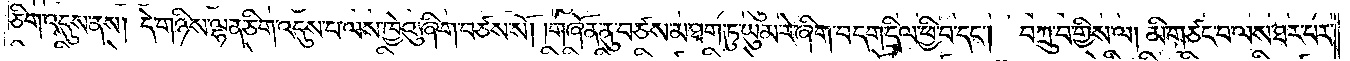ཅིག་འདུས་ནས། དེ་གཉིས་ལྷན་ཅིག་འདུས་པ་ལས་ཁྱེའུ་ཞིག་བཙས་སོ། །གཞོན་ནུ་བཙས་མ་ཐག་ཏུ་ཡུམ་རེ་ཞིག་བདག་དྲིལ་ཕྱི་བ་དང༌། བཀྲུ་བ་གྱིས་ལ། མི་གཙང་བ་ལས་ཐར་པར་
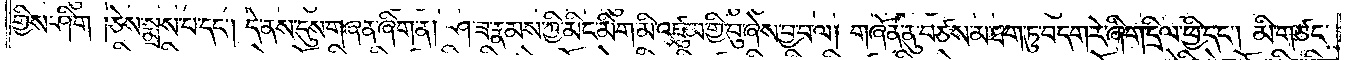གྱིས་ཤིག །ཅེས་སྨྲས་པ་དང༌། དེ་ནས་དུས་གཞན་ཞིག་ན། ཤ་ཟ་རྣམས་ཀྱི་མིང་མིག་མི་འཛུམ་གྱི་བུ་ཞེས་བྱ་བ་ལ། གཞོན་ནུ་བཙས་མ་ཐག་ཏུ་བདག་རེ་ཞིག་དྲིལ་ཕྱི་དང༌། མི་གཙང་
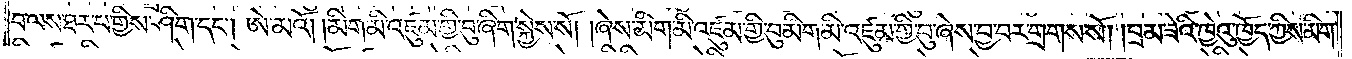བ་ལས་ཐར་པ་གྱིས་ཤིག་དང༌། ཨེ་མའོ། །མིག་མི་འཛུམ་གྱི་བུ་ཞིག་སྐྱེས་སོ། །ཞེས་མིག་མི་འཛུམ་གྱི་བུ་མིག་མི་འཛུམ་གྱི་བུ་ཞེས་བྱ་བར་གྲགས་སོ། །བྲམ་ཟེའི་ཁྱེའུ་ཁྱོད་ཀྱིས་མིག་
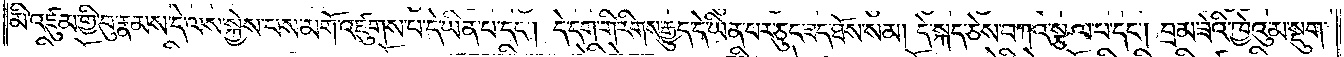མི་འཛུམ་གྱི་བུ་རྣམས་དེ་ལས་སྐྱེས་པས་མགོ་འཛུགས་པ་དེ་ཡིན་པ་དང༌། དེ་དག་གི་རིགས་རྒྱུད་དེ་ཡིན་པར་ཅུང་ཟད་ཐོས་སམ། དེ་སྐད་ཅེས་བཀའ་སྩལ་པ་དང༌། བྲམ་ཟེའི་ཁྱེའུ་མ་སྡུག་
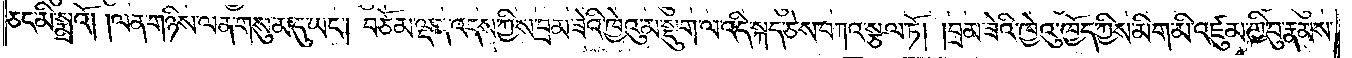ཅང་མི་སྨྲའོ། །ལན་གཉིས་ལན་གསུམ་དུ་ཡང༌། བཅོམ་ལྡན་འདས་ཀྱིས་བྲམ་ཟེའི་ཁྱེའུ་མ་སྡུག་ལ་འདི་སྐད་ཅེས་བཀའ་སྩལ་ཏོ། །བྲམ་ཟེའི་ཁྱེའུ་ཁྱོད་ཀྱིས་མིག་མི་འཛུམ་གྱི་བུ་རྣམས་
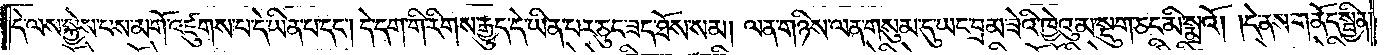དེ་ལས་སྐྱེས་པས་མགོ་འཛུགས་པ་དེ་ཡིན་པ་དང༌། དེ་དག་གི་རིགས་རྒྱུད་དེ་ཡིན་པར་ཅུང་ཟད་ཐོས་སམ། ལན་གཉིས་ལན་གསུམ་དུ་ཡང་བྲམ་ཟེའི་ཁྱེའུ་མ་སྡུག་ཅང་མི་སྨྲའོ། །དེ་ནས་གནོད་སྦྱིན་
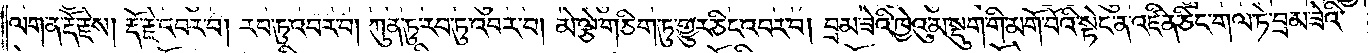ལག་ན་རྡོ་རྗེས། རྡོ་རྗེ་འབར་བ། རབ་ཏུ་འབར་བ། ཀུན་ཏུ་རབ་ཏུ་འབར་བ། མེ་ལྕེ་གཅིག་ཏུ་གྱུར་ཅིང་འབར་བ། བྲམ་ཟེའི་ཁྱེའུ་མ་སྡུག་གི་མགོ་བོའི་སྟེང་ན་འཛིན་ཅིང་གལ་ཏེ་བྲམ་ཟེའི་
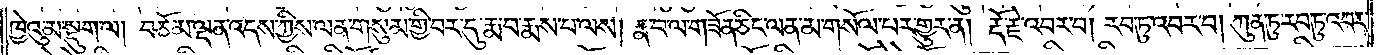ཁྱེའུ་མ་སྡུག་ལ། བཅོམ་ལྡན་འདས་ཀྱིས་ལན་གསུམ་གྱི་བར་དུ་རྨ་བ་སྨྲས་པ་ལས། རྣ་བ་ལ་གཟོན་ཅིང་ལན་མ་གསོལ་པར་གྱུར་ན། རྡོ་རྗེ་འབར་བ། རབ་ཏུ་འབར་བ། ཀུན་ཏུ་རབ་ཏུ་འབར་
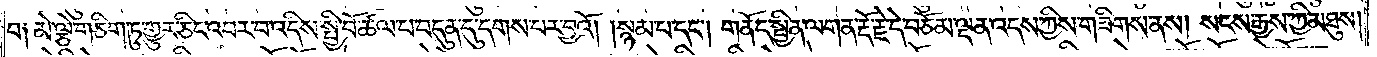བ༑ མེ་ལྕེ་གཅིག་ཏུ་གྱུར་ཅིང་འབར་བ་འདིས་སྤྱི་བོ་ཚལ་པ་བདུན་དུ་དགས་པར་བྱའོ། །སྙམ་པ་དང༌། གནོད་སྦྱིན་ལག་ན་རྡོ་རྗེ་དེ་བཅོམ་ལྡན་འདས་ཀྱིས་གཟིགས་ནས། སངས་རྒྱས་ཀྱི་མཐུས།
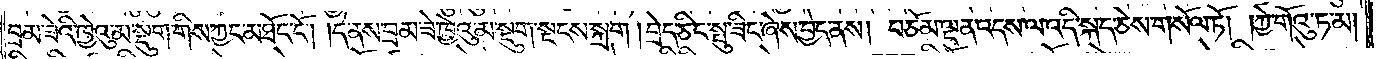བྲམ་ཟེའི་ཁྱེའུ་མ་སྡུག་གིས་ཀྱང་མཐོང་ངོ༌། །དེ་ནས་བྲམ་ཟེ་ཁྱེའུ་མ་སྡུག་སྔགས་སྐྲག །བྲེད་ཅིང་སྤུ་ཟིང་ཞེས་བྱེད་ནས། བཅོམ་ལྡན་འདས་ལ་འདི་སྐད་ཅེས་གསོལ་ཏོ། །ཀྱེ་གོའུ་ཏ་མ།
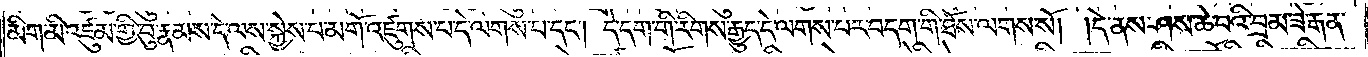མིག་མི་འཛུམ་གྱི་བུ་རྣམས་དེ་ལས་སྐྱེས་པ་མགོ་འཛུགས་པ་དེ་ལགས་པ་དང༌། དེ་དག་གི་རིགས་རྒྱུད་དེ་ལགས་པར་བདག་གི་ཐོས་ལགས་སོ། །དེ་ནས་ཤས་ཆེ་བའི་བྲམ་ཟེ་རྒན་
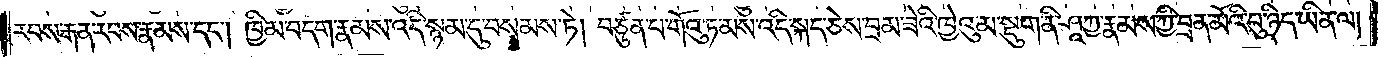རབས་རྒན་རབས་རྣམས་དང༌། ཁྱིམ་བདག་རྣམས་འདི་སྙམ་དུ་བསམས་ཏེ། བཙུན་པ་གོའུ་ཏ་མས་འདི་སྐད་ཅེས་བྲམ་ཟེའི་ཁྱེའུ་མ་སྡུག་ནི་ཤཱཀྱ་རྣམས་ཀྱི་བྲན་མོའི་བུ་ཉིད་ཡིན་ལ།
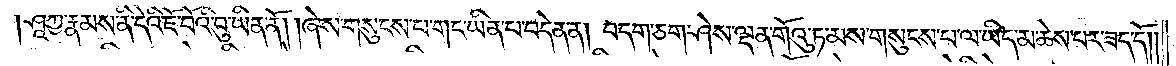ཤཱཀྱ་རྣམས་ནི་དེའི་ཇོ་བོའི་བུ་ཡིན་ནོ། །ཞེས་གསུངས་པ་གང་ཡིན་པ་བདེན་ན། བདག་ཅག་ཤེས་ལྡན་གོའུ་ཏ་མས་གསུངས་པ་ལ་ཡིད་མ་ཆེས་པར་ཟད་དོ༎
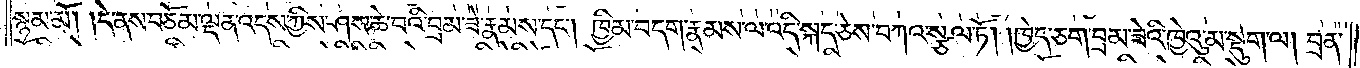སྙམ་མོ། །དེ་ནས་བཅོམ་ལྡན་འདས་ཀྱིས་ཤས་ཆེ་བའི་བྲམ་ཟེ་རྣམས་དང༌། ཁྱིམ་བདག་རྣམས་ལ་འདི་སྐད་ཅེས་བཀའ་སྩལ་ཏོ། །ཁྱེད་ཅག་བྲམ་ཟེའི་ཁྱེའུ་མ་སྡུག་ལ། བྲན་
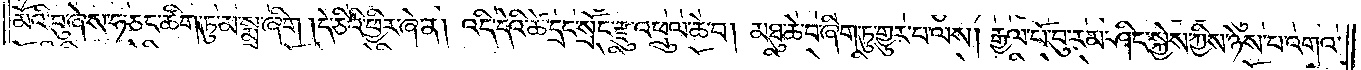མོའི་བུ་ཞེས་ཧ་ཅང་ཚིག་ཏུ་མ་སྨྲ་ཞིག །དེ་ཅིའི་ཕྱིར་ཞེ་ན། འདི་དེའི་ཚེ་དྲང་སྲོང་རྫུ་འཕྲུལ་ཆེ་བ། མཐུ་ཆེ་བ་ཞིག་ཏུ་གྱུར་པ་ལས། རྒྱལ་པོ་བུ་རམ་ཤིང་སྐྱེས་ཀྱིས་ཉེས་པ་འགའ་
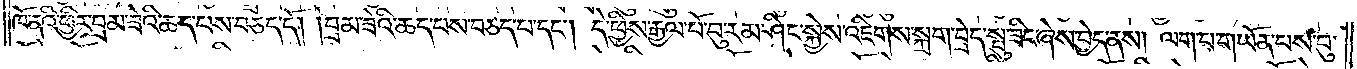ཁོ་ནའི་ཕྱིར་བྲམ་ཟེའི་ཆད་པས་བཅད་དོ། །བྲམ་ཟེའི་ཆད་པས་བཅད་པ་དང༌། དེ་ཕྱིས་རྒྱལ་པོ་བུ་རམ་ཤིང་སྐྱེས་འཇིགས་སྐྲག་བྲེད་སྤུ་ཟིང་ཞེས་བྱེད་ནས། ལག་པ་གཡོན་པས་བུ་
